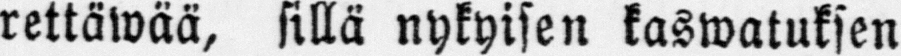rettäwää, sillä nykyisen kaswatuksen
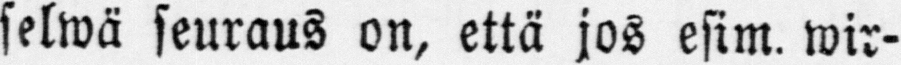selwä seuraus on, että jos esim. wir-
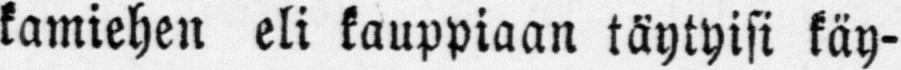kamiehen eli kauppiaan täytyisi käy-
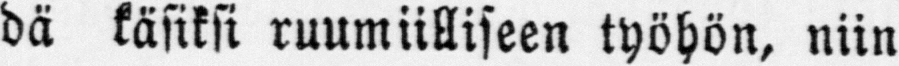dä käsiksi ruumiilliseen työhön, niin
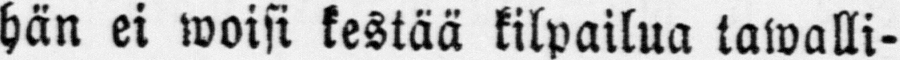hän ei woisi kestää kilpailua tawalli-
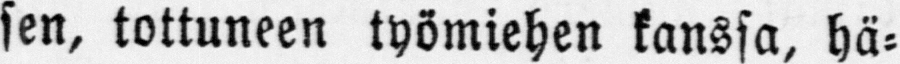sen, tottuneen työmiehen kanssa, hä-
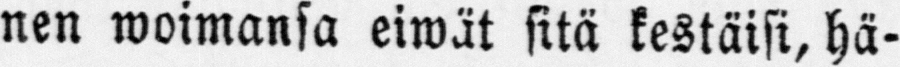nen woimansa eiwät sitä kestäisi, hä-
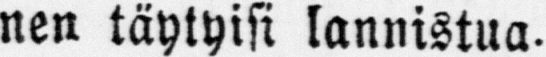nen täytyisi lannistua.
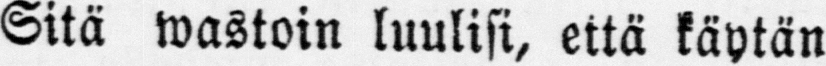Sitä wastoin luulisi, että käytän-
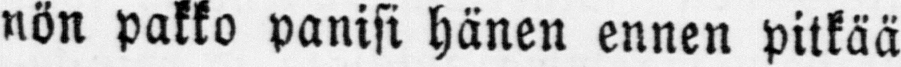nön pakko panisi hänen ennen pitkää
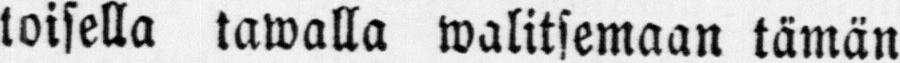toisella tawalla walitsemaan tämän
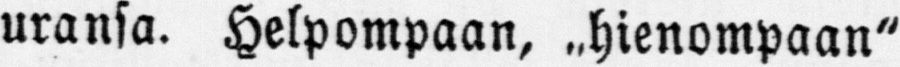uransa. Helpompaan, „hienompaan"
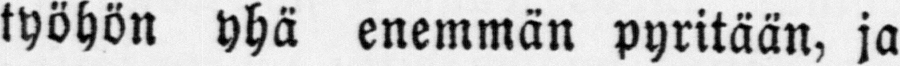työhön yhä enemmän pyritään, ja
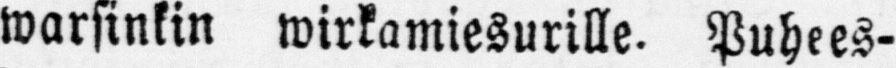warsinkin wirkamiesurille. Puhees-
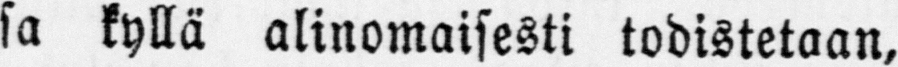sa kyllä alinomaisesti todistetaan,
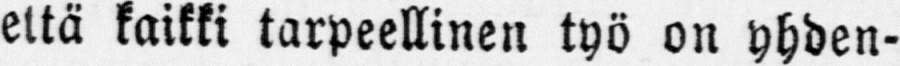että kaikki tarpeellinen työ on yhden-
